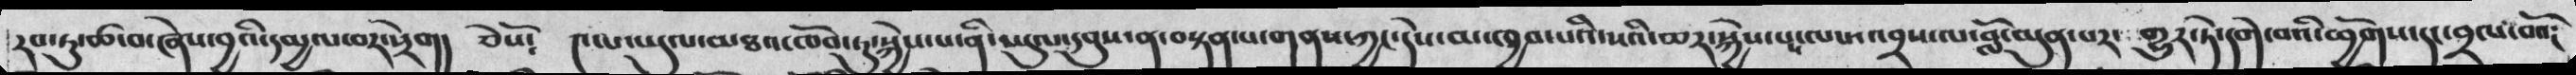རབ་ཏུ་ཚ་བ་ཞེས་བྱའི་དམྱལ་བར་སྲེག། ཅེསོ༴ ༤་པ་ཡུལ་མཐའ་ཁོབ་ཏུ་སྐྱེས་པ་ནི་ཡུལ་དབུས་ན་བསྟན་པ་གནས་ཀྱང་དེས་མ་ཁྱབ་པའི་སའི་ཆར་སྐྱེས་པ་ལས་འབྲས་ལ་བློ་མུན་པར་གྱུར་ཏེ་དགེ་བའི་ཕྱོགས་དང་བྲལ་བའོ༴
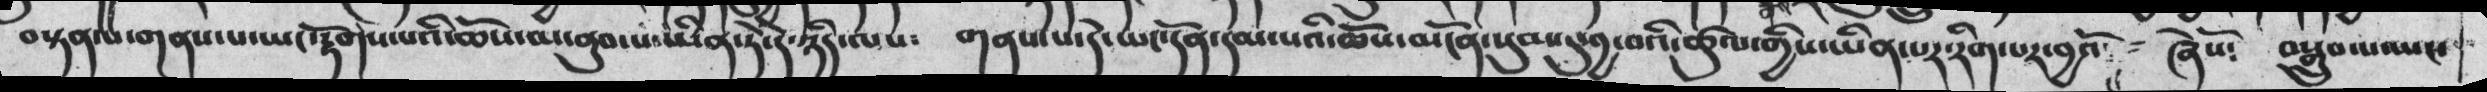བསྟན་པ་གནས་པ་ཡང་རྟོགས་པའི་ཆོས་མ་ནུབ་པ་ཡིན་ཏེ་དེ་ཉིད་ལས༴ གནས་པ་དེ་ཡང་དོན་དམ་པའི་ཆོས་མངོན་སུམ་དུ་བྱ་བའི་ཚུལ་གྱིས་ཡིན་པར་རིག་པར་བྱའོ།། ཞེསོ༴ བསྒྲུབ་པ་ཡང་
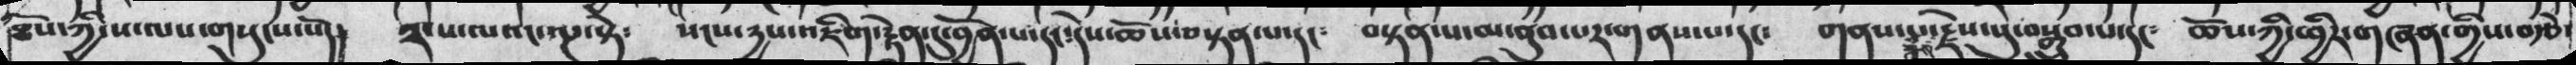ཐོས་ཀྱི་ས་ལས་གསུངས་སོ།།  ༢་པ་ལའང་ལྔ་སྟེ༴   སངས་དྱས་འཇིག་རྟེན་དུ་བྱོན་པ་དང་དེས་ཆོས་བསྟན་པ་དང༴   བསྟན་པ་མ་ནུབ་པར་གནས་པ་དང༴   གནས་པ་ཟླས་རྗེས་སུ་བསྒྲུབ་པ་དང༴   ཆོས་ཀྱི་ཕྱིར་གཞན་གྱིས་བརྩེ་
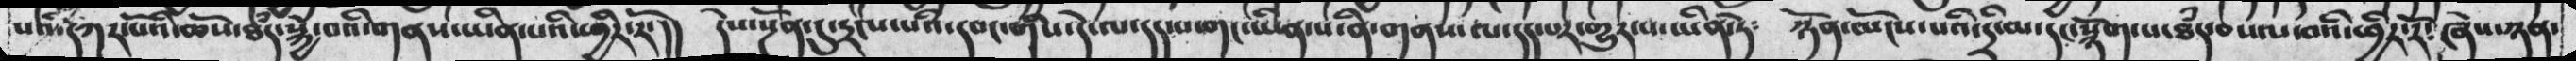པའི་དཀར་པོའོ་ཆོས་ཐཾད་སྐྱེ་བའི་གནས་ཡིན་པའི་ཕྱིར་རོ་།། དེས་སྔོན་དུ་དྲངས་པའི་དབང་གིས་དེ་ལ་དད་པ་གང་ཡིན་པ་ནི་གནས་ལ་དད་པར་གྱུར་པ་ཡིན་ཏེ༴ ཉོན་མོངས་པའི་དྲི་མ་དང་སྙོགས་པ་ཐཾད་བསལ་བའི་ཕྱིར་རོ༴ཞེས་ཉན་
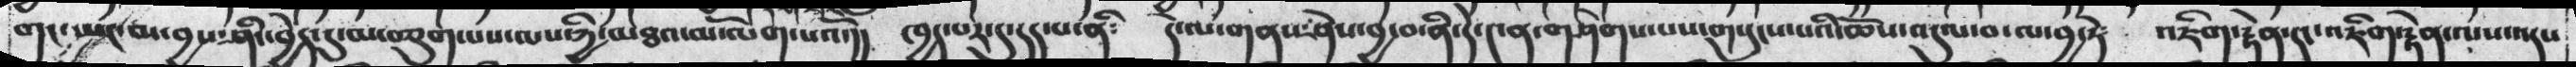གང་ཡང་མ་བྱས་ཤིང་བྱེད་དུ་མ་བཅུག་པས་ལས་ཀྱི་མཐའ་མ་ལོག་པའོ་།། ཁྱད་པར་དུ་དད་པ་ནི༴ དེ་ལ་གནས་ཤེས་བྱ་བ་ནི་དེ་༤ན་གཤེགས་པས་གསུངས་པའི་ཆོས་འདུལ་བ་ལ་བྱ་ཏེ༴ འཇིག་རྟེན་དང་འཇིག་རྟེན་ལས་འདས
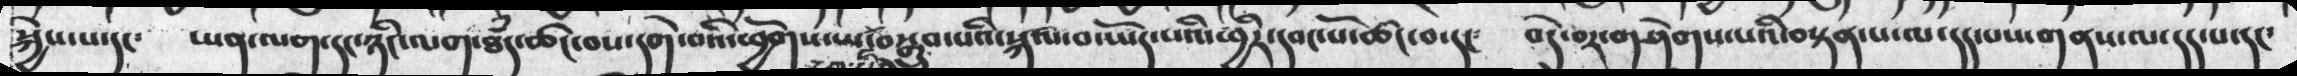སྐྱེས་པ་དང་   ཡན་ལག་དང་ཉིང་ལག་ཐཾད་ཚང་བས་དགེ་བའི་ཕྱོགས་ཡང་བསྒྲུབ་པའི་སྐལ་བ་ཡོད་པའི་ཕྱིར་དབང་པོ་ཚང་བ་དང༴  བདེ་བར་གཤེགས་པའི་བསྟན་པ་ལ་དད་པས་གནས་ལ་དད་པ་དང་
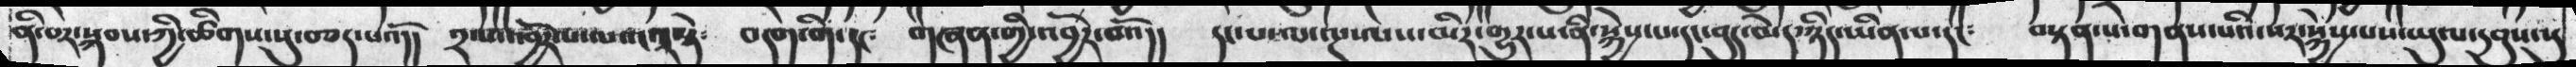ནི་བར་སྐབས་ཀྱི་ཚིགས་སུ་བཅད་པའོ།། ༢་པ་འབྱོར་པ་ལས་༣་ཏེ༴ བདག་གི་དང༴ གཞན་གྱི་འབྱོར་བའོ།། དང་པ་ལ་ལྔ་ལས་མིར་གྱུར་པ་ནི་སྐྱེས་པ་དང་བུད་མེད་ཉིད་ཡིན་པ་དང༴ བསྟན་པ་གནས་པའི་སར་སྐྱེས་པས་ཡུལ་དབུས་སུ
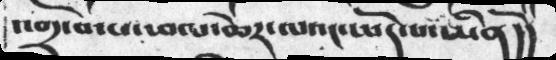འགྲོ་བ་པ་ཕལ་ཆེར་ལའང་ཡོད་པ་ཡིནོ།།
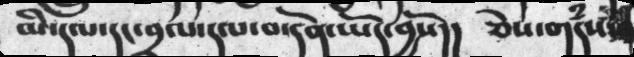མི་དལ་དང་བྲལ་དལ་བ་དོན་ཡོད་བྱསོ།།   ཅེས་གདཾས་
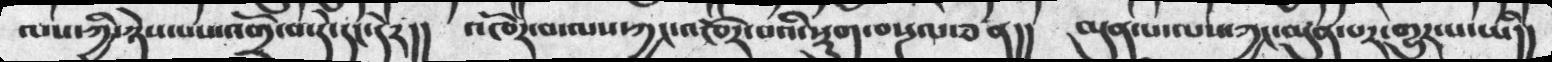ལས་ཀྱི་ཉེས་པས་འགྲོ་བ་དེ་དང་དེར།།  འཁོར་བ་ལས་ཀྱང་འཁོར་བའི་སྡུག་བསྔལ་ཅན།།  མུན་པ་ལས་ཀྱང་མུན་པར་གྱུར་པ་ཡི།།
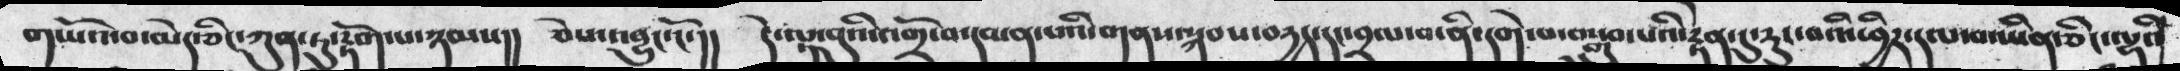གཡོའ་བ་མེད་ཅིང་ཀུན་ཏུ་རྟོག་པ་ཉམས།། ཅེས་འབྱུང་ངོ་།། དེ་ལྟ་བུའི་འགྲོ་བ་དམན་པའི་གནས་སྐབས་བརྱད་དང་བྲལ་བ་ནི་དགེ་བ་བསྒྲུབ་པའི་རྟེན་དུ་རུང་བའི་ཕྱིར་དལ་བ་ཡིན་ཅིང་ལྷའི
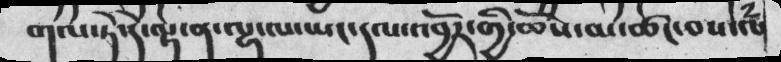གལ་ཏེ་དེ་ལྟ་ན་ལྷ་ལ་ཡང་དལ་འབྱོར་གྱི་ཆོས་མ་ཚང་བས་ལ
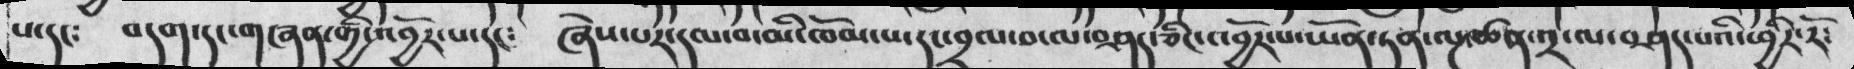པ་དང༴  བདག་དང་གཞན་གྱི་འབྱོར་པ་དང༴  ཞེས་པར་དལ་བ་མི་ཁོམ་པ་དང་བྲལ་བ་ལ་བཤད་ཅིང་འབྱོར་པ་ཡོན་ཏན་ལྔ་ཚན་༢་ལ་བཤད་པའི་ཕྱིར་རོ༴
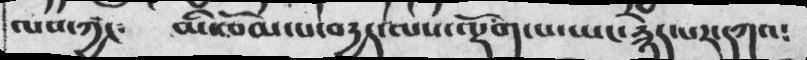ལས་ཀྱང༴  མི་ཁོམ་པ་བདྱད་ལས་ལྡོག་པ་ཡང་རྙེད་པར་དཀའ༴
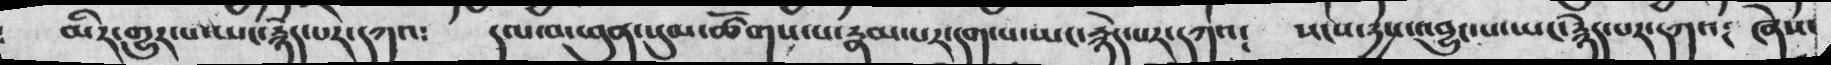མིར་གྱུར་པ་ཡང་རྙེད་པར་དཀའ༴  དལ་བ་ཕུན་སུམ་ཚོགས་པ་རྣམ་པར་དག་པ་ཡང་རྙེད་པར་དཀའ༴  སངས་རྱས་འབྱུང་པ་ཡང་རྙེད་པར་དཀའ༴  ཞེས་
